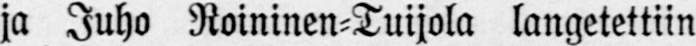ja Juho Roininen-Tuijola langetettiin
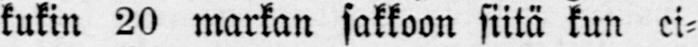kukin 20 markan sakkoon siitä kun ei-
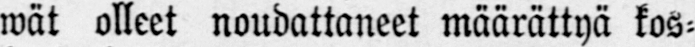wät olleet noudattaneet määrättyä kos-
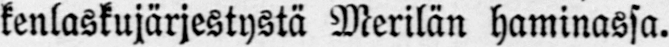kenlaskujärjestystä Merilän haminassa.
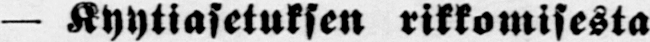— Kyytiasetuksen rikkomisesta
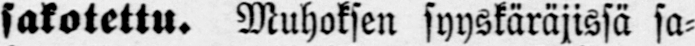sakotettu. Muhoksen syyskäräjissä sa-
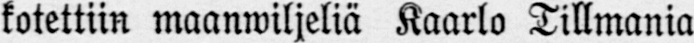kotettiin maanwiljeliä Kaarlo Tillmania
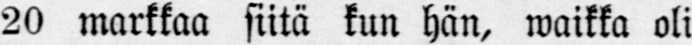20 markkaa siitä kun hän, waikka oli
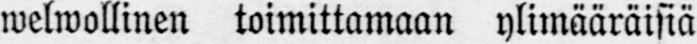welwollinen toimittamaan ylimääräisiä
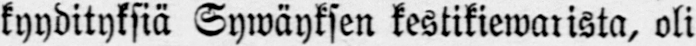kyydityksiä Sywäyksen kestikiewarista, oli
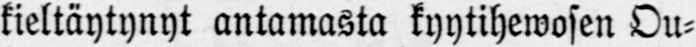kieltäytynyt antamasta kyytihewosen Ou-
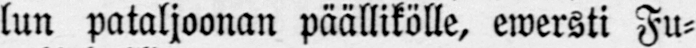lun pataljoonan päällikölle, ewersti Fu-
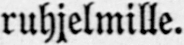ruhjelmille.
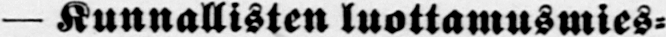— Kunnallisten luottamusmies-
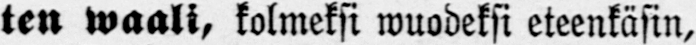ten waali, kolmeksi wuodeksi eteenkäsin,
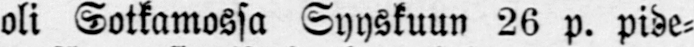oli Sotkamossa Syyskuun 26 p. pide-
